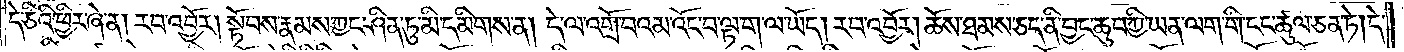དེ་ཅིའི་ཕྱིར་ཞེ་ན། རབ་འབྱོར། སྟོབས་རྣམས་ཀྱང་ཤིན་ཏུ་མི་དམིགས་ན། དེ་ལ་འགྲོ་བའམ་འོང་བ་ལྟ་ག་ལ་ཡོད། རབ་འབྱོར། ཆོས་ཐམས་ཅད་ནི་བྱང་ཆུབ་ཀྱི་ཡན་ལག་གི་ངང་ཚུལ་ཅན་ཏེ། དེ་
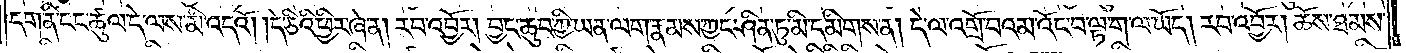དག་ནི་ངང་ཚུལ་དེ་ལས་མི་འདའོ། །དེ་ཅིའི་ཕྱིར་ཞེ་ན། རབ་འབྱོར། བྱང་ཆུབ་ཀྱི་ཡན་ལག་རྣམས་ཀྱང་ཤིན་ཏུ་མི་དམིགས་ན། དེ་ལ་འགྲོ་བའམ་འོང་བ་ལྟ་ག་ལ་ཡོད། རབ་འབྱོར། ཆོས་ཐམས་
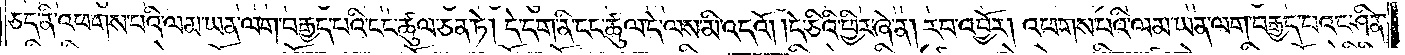ཅད་ནི་འཕགས་པའི་ལམ་ཡན་ལག་བརྒྱད་པའི་ངང་ཚུལ་ཅན་ཏེ། དེ་དག་ནི་ངང་ཚུལ་དེ་ལས་མི་འདའོ། །དེ་ཅིའི་ཕྱིར་ཞེ་ན། རབ་འབྱོར། འཕགས་པའི་ལམ་ཡན་ལག་བརྒྱད་པའང་ཤིན་
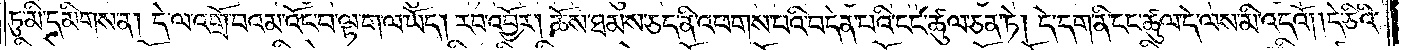ཏུ་མི་དམིགས་ན། དེ་ལ་འགྲོ་བའམ་འོང་བ་ལྟ་ག་ལ་ཡོད། རབ་འབྱོར། ཆོས་ཐམས་ཅད་ནི་འཕགས་པའི་བདེན་པའི་ངང་ཚུལ་ཅན་ཏེ། དེ་དག་ནི་ངང་ཚུལ་དེ་ལས་མི་འདའོ། །དེ་ཅིའི་
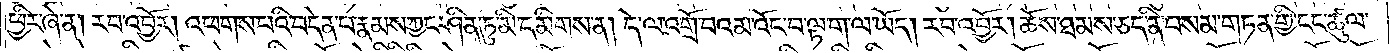ཕྱིར་ཞེ་ན། རབ་འབྱོར། འཕགས་པའི་བདེན་པ་རྣམས་ཀྱང་ཤིན་ཏུ་མི་དམིགས་ན། དེ་ལ་འགྲོ་བའམ་འོང་བ་ལྟ་ག་ལ་ཡོད། རབ་འབྱོར། ཆོས་ཐམས་ཅད་ནི་བསམ་གཏན་གྱི་ངང་ཚུལ་
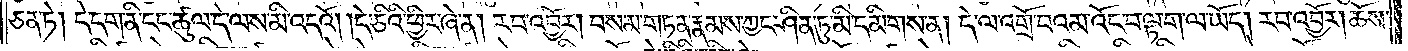ཅན་ཏེ། དེ་དག་ནི་ངང་ཚུལ་དེ་ལས་མི་འདའོ། །དེ་ཅིའི་ཕྱིར་ཞེ་ན། རབ་འབྱོར། བསམ་གཏན་རྣམས་ཀྱང་ཤིན་ཏུ་མི་དམིགས་ན། དེ་ལ་འགྲོ་བའམ་འོང་བ་ལྟ་ག་ལ་ཡོད། རབ་འབྱོར། ཆོས་
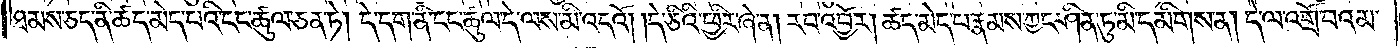ཐམས་ཅད་ནི་ཚད་མེད་པའི་ངང་ཚུལ་ཅན་ཏེ། དེ་དག་ནི་ངང་ཚུལ་དེ་ལས་མི་འདའོ། །དེ་ཅིའི་ཕྱིར་ཞེ་ན། རབ་འབྱོར། ཚད་མེད་པ་རྣམས་ཀྱང་ཤིན་ཏུ་མི་དམིགས་ན། དེ་ལ་འགྲོ་བའམ་
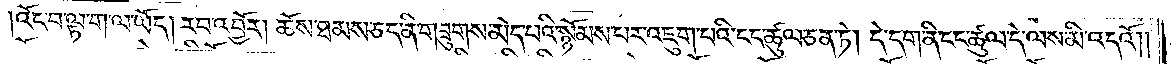འོང་བ་ལྟ་ག་ལ་ཡོད། རབ་འབྱོར། ཆོས་ཐམས་ཅད་ནི་གཟུགས་མེད་པའི་སྙོམས་པར་འཇུག་པའི་ངང་ཚུལ་ཅན་ཏེ། དེ་དག་ནི་ངང་ཚུལ་དེ་ལས་མི་འདའོ༎
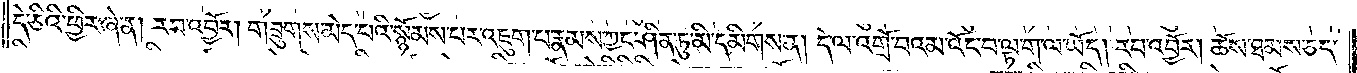དེ་ཅིའི་ཕྱིར་ཞེ་ན། རབ་འབྱོར། གཟུགས་མེད་པའི་སྙོམས་པར་འཇུག་པ་རྣམས་ཀྱང་ཤིན་ཏུ་མི་དམིགས་ན། དེ་ལ་འགྲོ་བའམ་འོང་བ་ལྟ་ག་ལ་ཡོད། །རབ་འབྱོར། ཆོས་ཐམས་ཅད་
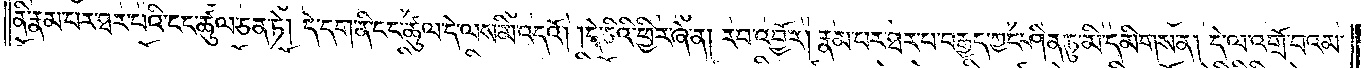ནི་རྣམ་པར་ཐར་པའི་ངང་ཚུལ་ཅན་ཏེ། དེ་དག་ནི་ངང་ཚུལ་དེ་ལས་མི་འདའོ། །དེ་ཅིའི་ཕྱིར་ཞེ་ན། རབ་འབྱོར། རྣམ་པར་ཐར་པ་བརྒྱད་ཀྱང་ཤིན་ཏུ་མི་དམིགས་ན། དེ་ལ་འགྲོ་བའམ་
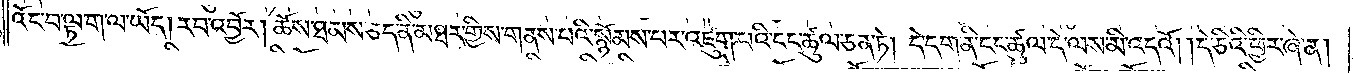འོང་བ་ལྟ་ག་ལ་ཡོད། རབ་འབྱོར། ཆོས་ཐམས་ཅད་ནི་མཐར་གྱིས་གནས་པའི་སྙོམས་པར་འཇུག་པའི་ངང་ཚུལ་ཅན་ཏེ། དེ་དག་ནི་ངང་ཚུལ་དེ་ལས་མི་འདའོ། །དེ་ཅིའི་ཕྱིར་ཞེ་ན།
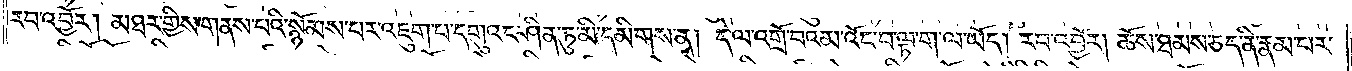རབ་འབྱོར། མཐར་གྱིས་གནས་པའི་སྙོམས་པར་འཇུག་པ་དགུའང་ཤིན་ཏུ་མི་དམིགས་ན། དེ་ལ་འགྲོ་བའམ་འོང་བ་ལྟ་ག་ལ་ཡོད། རབ་འབྱོར། ཆོས་ཐམས་ཅད་ནི་རྣམ་པར་
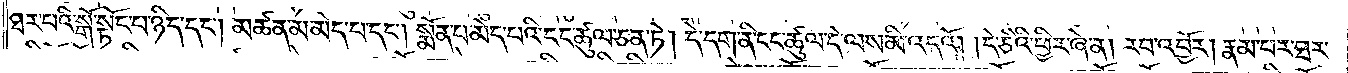ཐར་པའི་སྒོ་སྟོང་པ་ཉིད་དང༌། མཚན་མ་མེད་པ་དང༌། སྨོན་པ་མེད་པའི་ངང་ཚུལ་ཅན་ཏེ། དེ་དག་ནི་ངང་ཚུལ་དེ་ལས་མི་འདའོ། །དེ་ཅིའི་ཕྱིར་ཞེ་ན། རབ་འབྱོར། རྣམ་པར་ཐར་
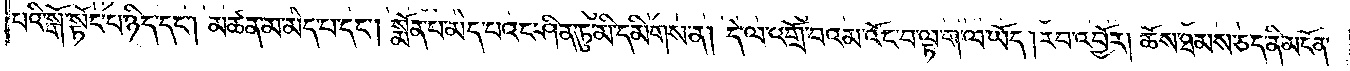པའི་སྒོ་སྟོང་པ་ཉིད་དང༌། མཚན་མ་མེད་པ་དང༌། སྨོན་པ་མེད་པའང་ཤིན་ཏུ་མི་དམིགས་ན། དེ་ལ་འགྲོ་བའམ་འོང་བ་ལྟ་ག་ལ་ཡོད། རབ་འབྱོར། ཆོས་ཐམས་ཅད་ནི་མངོན་
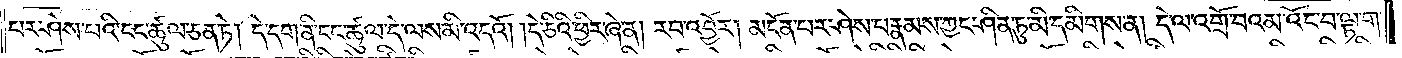པར་ཤེས་པའི་ངང་ཚུལ་ཅན་ཏེ། དེ་དག་ནི་ངང་ཚུལ་དེ་ལས་མི་འདའོ། །དེ་ཅིའི་ཕྱིར་ཞེ་ན། རབ་འབྱོར། མངོན་པར་ཤེས་པ་རྣམས་ཀྱང་ཤིན་ཏུ་མི་དམིགས་ན། དེ་ལ་འགྲོ་བའམ་འོང་བ་ལྟ་ག་
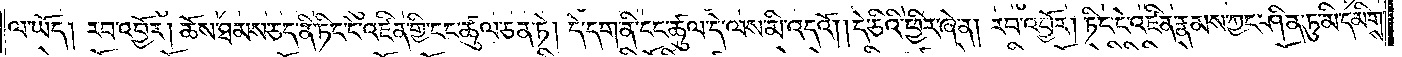ལ་ཡོད། རབ་འབྱོར། ཆོས་ཐམས་ཅད་ནི་ཏིང་ངེ་འཛིན་གྱི་ངང་ཚུལ་ཅན་ཏེ། དེ་དག་ནི་ངང་ཚུལ་དེ་ལས་མི་འདའོ། །དེ་ཅིའི་ཕྱིར་ཞེ་ན། རབ་འབྱོར། ཏིང་ངེ་འཛིན་རྣམས་ཀྱང་ཤིན་ཏུ་མི་དམིགས་
